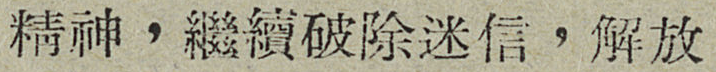精神，繼續破除迷信，解放
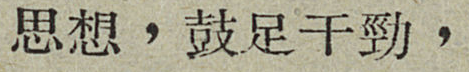思想，鼓足干勁，
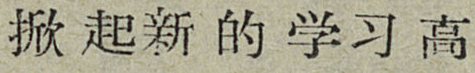掀起新的学习高
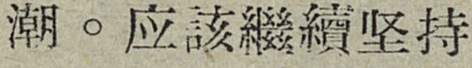潮。应該繼續坚持
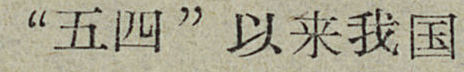“五四”以来我国
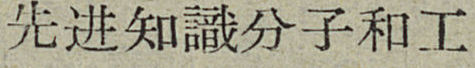先进知識分子和工
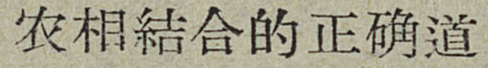农相結合的正确道
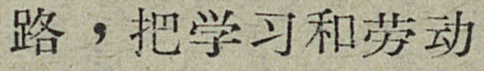路，把学习和劳动
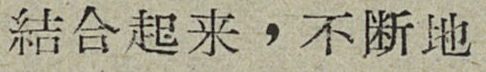結合起来，不断地
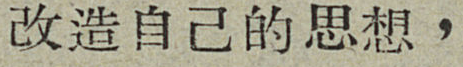改造自己的思想，
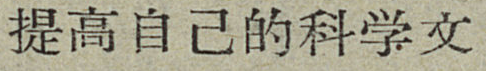提高自己的科学文
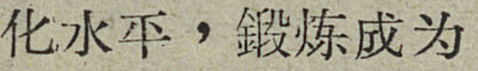化水平，鍛炼成为
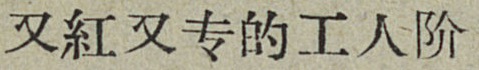又紅又专的工人阶
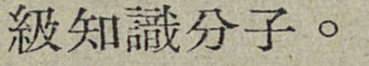級知識分子。
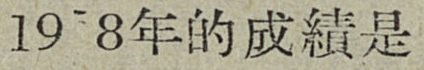1958年的成績是
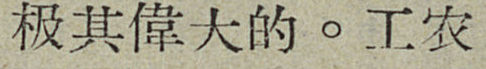极其偉大的。工农
